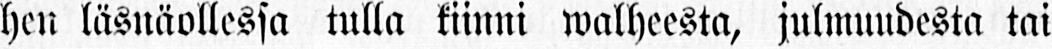hen läsnäollessa tulla kiinni walheesta, julmuudesta tai
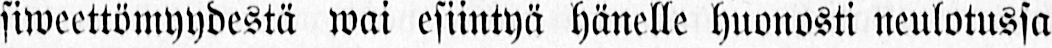siweettömyydestä wai esiintyä hänelle huonosti neulotussa
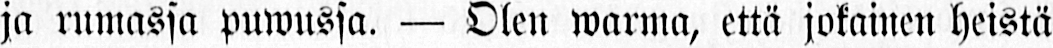ja rumassa puwussa. - Olen warma, että jokainen heistä
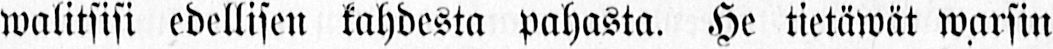walitsisi edellisen kahdesta pahasta. He tietäwät warsin
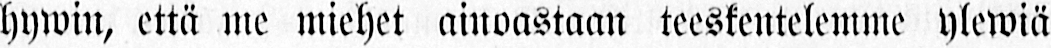hywin, että me miehet ainoastaan teeskentelemme ylewiä
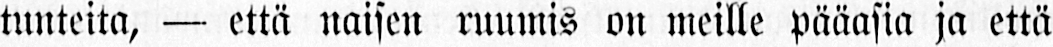tunteita, - että naisen ruumis on meille pääasia ja että
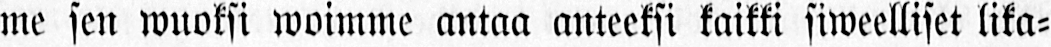me sen wuoksi woimme antaa anteeksi kaikki siweelliset lika-
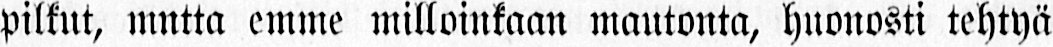pilkut, mntta emme milloinkaan mautonta, huonosti tehtyä
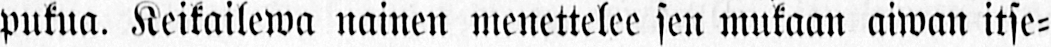pukua. Keikailewa nainen menettelee sen mukaan aiwan itse-
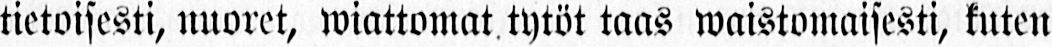tietoisesti, nuoret, wiattomat tytöt taas waistomaisesti, kuten
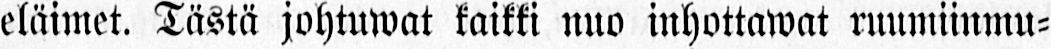eläimet. Tästä johtuwat kaikki nuo liihottawat ruumiinmu-
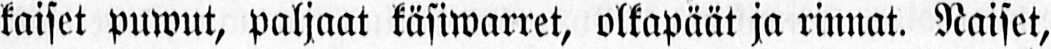kaiset puwut, paljaat käsiwarret, olkapäät ja rinnat. Naiset,
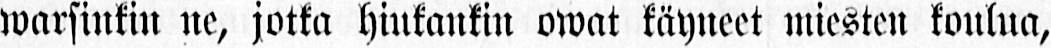warsinkin ne, jotka hiukankin owat käyneet miesten koulua,
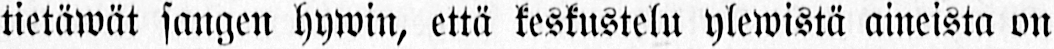tietäwät sangen hywin, että keskustelu ylewistä aineista on
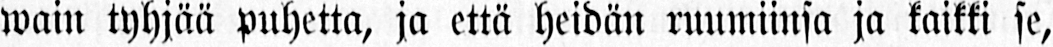wain tyhjää puhetta, ja että heidän ruumiinsa ja kaikki se,
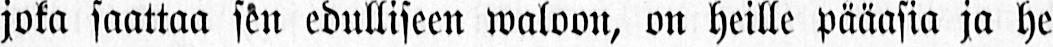joka saattaa sen edulliseen waloon, on heille pääasia ja he
